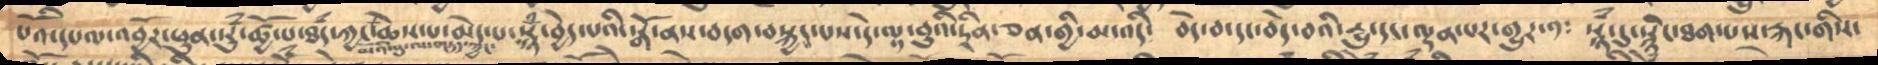པོའི་དཔལ་འབྱོར་ཕུན་སུཾ་ཚྱོ་པ་ཐཾད་ཀྱང་མོའི་བུ་ལ་གཏད་ཀྱང་ཆེས་པ་མེད་པ་སྙཾ་བྱེད་པའི་སྒོ་ནས་བདག་བསྐྱངས་པས་དེ་ལྟ་བུའི་དྲིན་ཅན་གྱི་མ་འདི་  བདེ་བ་དང་བདེ་བའི་དྱུ་དང་ལྡན་པར་གྱུར་༡༴   སྙཾ་དུ་སྙིང་ཐག་པས་རྐང་གིས་
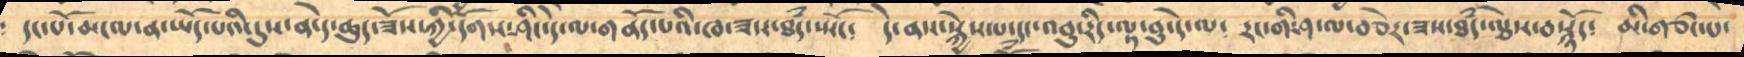དང་པོ་ཆང་པ་ན་ཡོད་པའི་དུས་ན་དེ་ཆུད་ཟོས་ཀྱི་དོགས་ཤིང་དེ་ལ་གནོད་པའི་ཁ་ཟང་ཐྃད་ཡོང༴  དེ་ནས་སྐྱེས་པ་དང་འབུ་རིད་ལྟ་བུ་དེ་ལ༴  རང་གི་ཤ་ལ་བཅེར་ཟས་ཐྃད་ལྩེས་བསྙོད༴  མི་གཙང་པ་
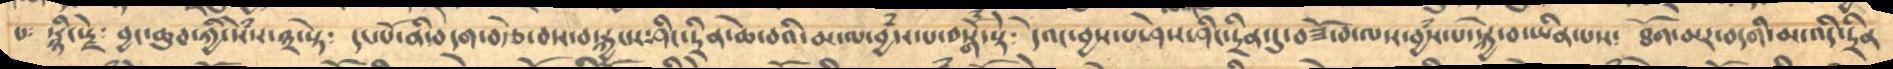པ་  སྙིང་རྗེ་བྱང་ཆུབ་ཀྱི་སེྃས་༣་སྟེ༴   དང་པོ་ནི་བདག་བརྩེ་བས་བསྐྱཔས་ཏྲིན་ཆེ་བའི་མ་ལ་བྱས་པ་སྒོ་སྟེ༴  དེའང་བྱས་པ་ཤེས་ནི་དྲིན་དུ་བཟོ་བ་ལས་བྱཾས་པ་སྐྱེ་བ་ཡིན་པས༴  ཐོག་མར་བདགི་མ་འདི་དྲིན
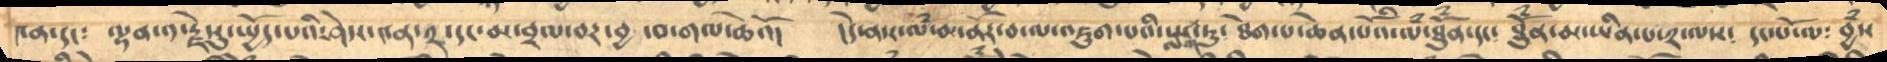༤ན་དང༴  ལྷན་༡་རྗེསུ་སྤྱོད་པའི་ཤེས་༤ན་༢་དང་མ་བྲལ་བར་བྱ་བ་གལ་ཆེའོ།   །དེ་ནས་ལཾ་མ་ནོར་བ་ལ་འཇུག་པའི་ཡལག་ཏུ་ཐེག་པ་ཆེན་པོའི་ལཾ་ཐོུཾན་དང༴  ཐོུཾན་མ་ཡིན་པ་༢་ལས༴  དང་པོ་ལ༴  བྱཾས
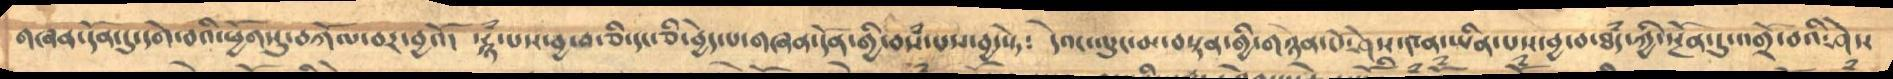གཞན་དོན་དུ་དགེ་བའི་ཕྱོགསུ་བཀོལ་བར་བྱའོ་ སྙཾ་པས་བྱ་བ་དང་ཅི་དང་ཅི་བྱེད་པ་གཞན་དོན་གྱི་བསཾ་པས་བྱ་སྟེ༴ དེའང་ལུང་མ་བསྟན་གྱི་གཉན་པོ་ཤེས་༤ན་ཡིན་པས་བྱ་བ་ཐཾད་ཀྱི་སྔོན་དུ་འགྲོ་བའི་ཤེས
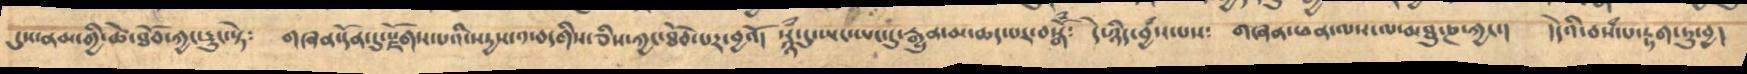དུས་ནམ་གྱི་ཚེ་ཐོབ་ཀྱང་རུང་སྟེ༴  གཞན་དོན་དུ་རྫོགས་པའིསརྱས་༡་བདགིས་ཅིག་ཀྱང་ཐོབ་པར་བྱའོ།  སྙྃ་དུ་ཡང་ཡང་དུ་རྒྱུན་མ་ཆད་པར་བསྒོྃ༴  དེ་ཉིད་བྱཾས་པས༴  གཞན་ཕན་ལས་ལ་མཐུ་ཎ་ཀྱང་།  །དེའི་བསཾ་པ་རྟག་ཏུ་བྱ།
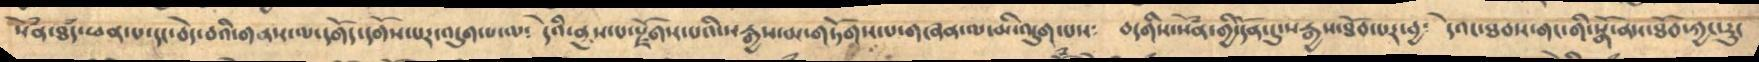སེྃན་ཐཾད་ཕན་དང་བདེ་བའི་གནས་ལ་དགོད་སགོས་པར་འདུག་པ་ལ༴  དེའི་ནུས་པ་རྫོགས་པའི་སརྒྱས་མ་གཏོགས་པ་གཞན་ལ་མི་འདུག་པས༴  བདགིས་སེྃན་གྱི་དོན་དུ་སརྒྱས་ཐོབ་པར་བྱ༴ དེའང་ཐབས་གང་གི་སྒོ་ནས་ཐོབ་ཀྱང་རུང
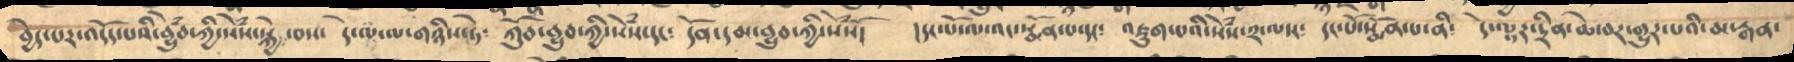བྱེད་པར་འདོད་པའི་བྱུབ་ཀྱི་སེཾས་སྐྱེ་བདང་  དེ་མ་མ་གཉིས་ཏེ༴ ཀོུབ་བྱུབ་ཀྱི་སེཾས་དང༴  དོན་དམ་བྱུབ་ཀྱི་སེཾསོ། །དང་པོ་ལ་འང་སྨོན་པ་དང༴ འཇུག་པའི་སེཾས་༢་ལས༴  དང་པོ་སྨོན་པ་ནི༴  དེ་ལྟར་རྲིན་ཆེ་བར་གྱུར་པའི་མ་རྒན་
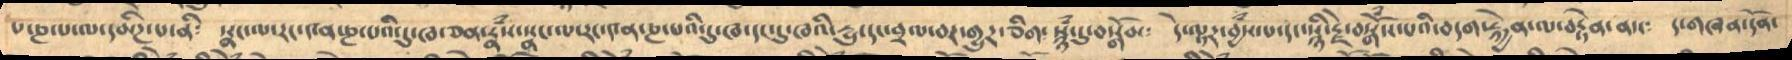པ་ཎ་པ་ལ་དམིཌ་ནི༴  སྣང་མ་རང་༤ན་ཎ་པའི་དུ་ཁ་ཅན་རྣཾས་སྣང་ལ་རང་༤ན་ཎ་པའི་དུ་ཁ་དང་དུ་ཁའི་རྒྱུ་དང་བྲལ་བར་གྱུཏ་ཅིག་སྙཾསུ་བསྒོམ༴  དེ་ལྟར་བྱཾས་པ་དང་སྙི་རྗེ་བསྒོཾས་པའི་བདག་རྐྱེན་ལ་བརྟེན་ནས༴  ད་གཞན་ཏོན་
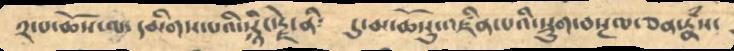༢་པ་ཆོསལ་ དམིགས་པའི་སྙིང་རྗེ་ནི༴  དུ་མ་ཆོསུ་འཛིན་པའི་སྡུག་བསྔལ་ཅན་རྣཾས་
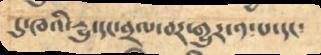དུ་ཁའི་རྒྱུ་དང་བྲལ་བར་གྱུར་༡་པ་དང༴
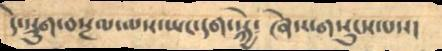དེ་སྡུག་བསྔལ་ལས་ཡང་དག་པར་སྐྱེ༴  ཞེས་གསུངས་པས།
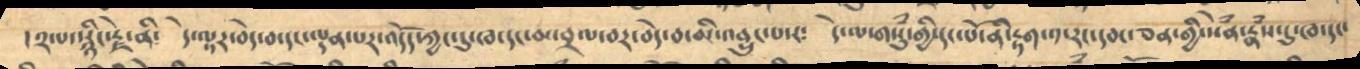།༢་པ་པྙིང་རྗེ་ནི༴ དེ་ལྟར་བདེ་བ་དང་ལྡན་པར་འདོད་ཀྱང་དུ་ཁདང་མ་བྲལ་བར་བདེ་བ་མི་འབྱུང་པས༴  དེ་ལ་གསུཾ་གྱི་དང་པོ་ནི་རྟག་༡་རང་དབང་ཅན་གྱི་སེྃན་རྣཾས་དུ་ཁ་དང༴
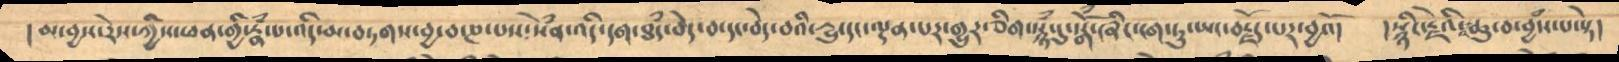།མ་བྱས་རེས་ཀྱིས་ཕན་གྱི་རྣཾ་པ་འདི་མ་བཏགས་བྱ་བ་ཎ་པས་སེཾན་འདི་དག་བདེ་བ་དང་བདེ་བའི་དྱུ་དང་ལྡན་པར་གྱུར་ཅིག་སྙཾ་དུ་སྒོཾ་ཞིང་དག་ཏུ་ཡང་བརྗོད་པར་བྱའོ།   །སྙིང་རྗེའི་འཆུ་བ་བྱཾས་པ་སྟེ།
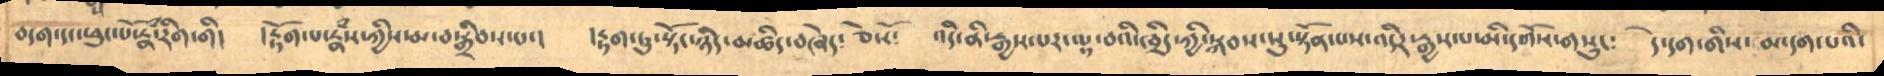བདག་དང་ཕུང་པོ་རྣཾ་རིག་གི། །རྟོག་པ་རྣཾས་ཀྱིས་བསྒྲིབས་པ་། །རྟག་ཏུ་སྟོང་ཉིད་མཚིད་བཞེད་ཅེསོ༴ འདི་ནི་རྒྱས་པར་ལྟ་བའི་ཁྲིད་ཀྱི་སྐབས་སུ་སྟོན་པས་འདིར་རྒྱས་པ་མི་དགོས་གསུང༴ དེ་དག་གིས་མ་དག་པའི་
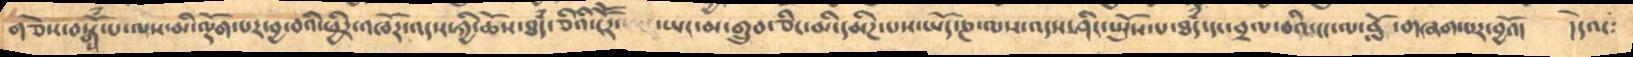གཅེས་བསྒོཾ་པ་ལས་མི་ལྡོག་པར་བྱ་བའི་ཕྱིར་འཁོར་འདས་ཀྱི་ཆོས་ཐཾད་ཅིའི་ངོོར་ ་ཡང་མ་གྲུབ་ཅིང་མི་དམིཌ་པས་ཡོད་ཎ་ལས་འདས་ཤིང་ཡོུས་པ་ཐཾད་དང་བྲལ་བའི་ངང་ལ་བློ་གཞག་པར་བྱའོ། །དེའང་༴
